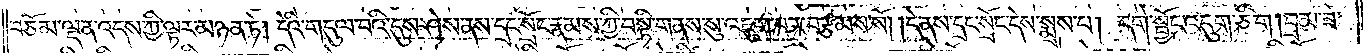བཅོམ་ལྡན་འདས་ཀྱི་ལྟར་མཉན་ཏེ། དེའི་གདུལ་བའི་དུས་ཤེས་ནས་དྲང་སྲོང་རྣམས་ཀྱི་བསྟི་གནས་སུ་འཇུག་པར་བརྩམས་སོ། །དེ་ནས་དྲང་སྲོང་དེས་སྨྲས་པ། དགེ་སྦྱོང་འདུག་ཅིག །བྲམ་ཟེ་
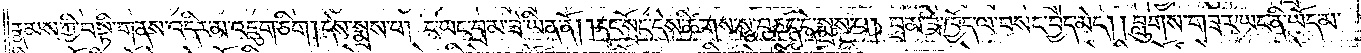རྣམས་ཀྱི་བསྟི་གནས་འདིར་མ་འཇུག་ཅིག །དེས་སྨྲས་པ། ང་ཡང་བྲམ་ཟེ་ཡིན་ནོ། །དྲང་སྲོང་དེས་ཚིགས་སུ་བཅད་དེ་སྨྲས་པ། བྲམ་ཟེ་ཁྱོད་ལ་བསང་བྱེད་མེད། བླུགས་གཟར་ཡང་ནི་ཡོད་མ་
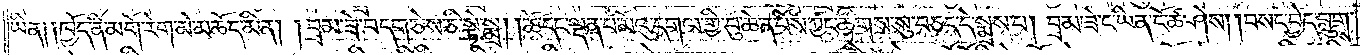ཡིན ༑  ༑ཁྱོད་ནི་མགོ་རེག་མེ་མཆོད་མིན། །བྲམ་ཟེ་བདག་ཅེས་ཅི་སྟེ་སྨྲ། །ཚེ་དང་ལྡན་པ་མོའུ་དགལ་གྱི་བུ་ཆེན་པོས་ཀྱང་ཚིགས་སུ་བཅད་དེ་སྨྲས་པ། བྲམ་ཟེ་ང་ཡིན་ངོ་ཚ་ཤེས། །བསང་བྱེད་བླུགས་
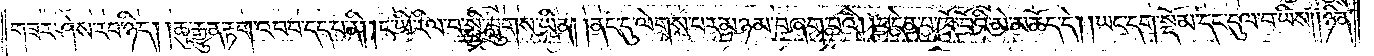གཟར་ཤེས་རབ་ཉིད། །ཆུ་རྒྱུན་རྟག་འབབ་དད་པ་ནི། །ང་ཡི་རིལ་པ་སྤྱི་བླུགས་ཡིན། །ནང་དུ་ལེགས་པར་མཉམ་བཞག་པའི། །བདེན་པ་ཁོ་བོའི་མེ་མཆོད་དེ། །ཡང་དག་སྡོམ་དང་དུལ་བ་ཡིས། །ཉིན་
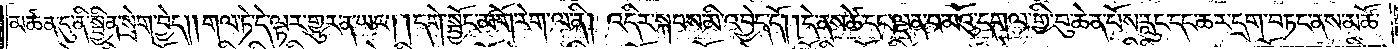མཚན་དུ་ནི་སྦྱིན་སྲེག་བྱེད། །གལ་ཏེ་དེ་ལྟར་གྱུར་ན་ཡང༌། །དགེ་སྦྱོང་མགོ་རེག་ལ་ནི། འདིར་སྐབས་མི་འབྱེད་དོ། །དེ་ནས་ཚེ་དང་ལྡན་པ་མོའུ་དགལ་གྱི་བུ་ཆེན་པོས་རླུང་དང་ཆར་དྲག་བཏང་ནས་མཚོ་
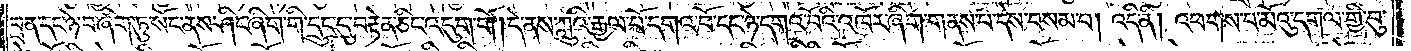བྲན་དང་ཉེ་བ་ཞིག་ཏུ་སོང་ནས་ཤིང་ཞིག་གི་དྲུང་དུ་བརྟེན་ཅིང་འདུག་གོ །དེ་ནས་ཀླུའི་རྒྱལ་པོ་དགའ་བོ་དང་ཉེ་དགའ་བོའི་འཁོར་ཞིག་གནས་པ་དེས་བསམ་པ། འདི་ནི། འཕགས་པ་མོའུ་དགལ་གྱི་བུ་
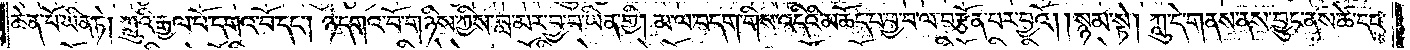ཆེན་པོ་ཡིན་ཏེ། ཀླུའི་རྒྱལ་པོ་དགའ་བོ་དང༌། ཉེ་དགའ་བོ་གཉིས་ཀྱིས་བླ་མར་བྱ་བ་ཡིན་གྱི། མ་ལ་བདག་གིས་འདིའི་མཆོད་པ་བྱ་བ་ལ་བརྩོན་པར་བྱའོ། །སྙམ་སྟེ། ཀླུ་དེ་གནས་ནས་བྱུང་ནས་ཚེ་དང་
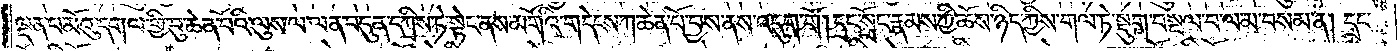ལྡན་པ་མོའུ་དགལ་གྱི་བུ་ཆེན་པོའི་ལུས་ལ་ལན་བདུན་དཀྲིས་ཏེ་སྟེང་ནས་མགོའི་གདེངས་ཀ་ཆེན་པོ་བྱས་ནས་འདུག་གོ །དྲང་སྲོང་རྣམས་ཀྱི་ཆོས་ཉིད་ཀྱིས་གལ་ཏེ་སྡུག་བསྔལ་བ་ལམ་བསམ་ན། དྲང་
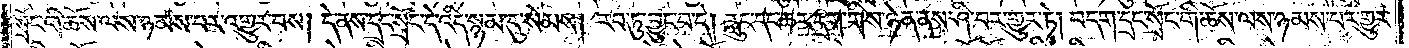སྲོང་གི་ཆོས་ལས་ཉམས་པར་འགྱུར་བས། དེ་ནས་དྲང་སྲོང་དེ་འདི་སྙམ་དུ་སེམས། རབ་ཏུ་བྱུང་བ་དེ། རླུང་དང་ཆར་དྲག་གིས་ཉེན་ནས་ཤི་བར་གྱུར་ཏེ། བདག་དྲང་སྲོང་གི་ཆོས་ལས་ཉམས་པར་གྱུར་
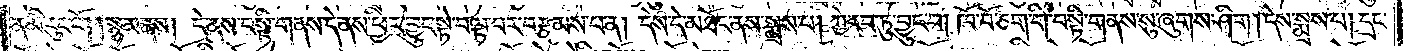ན་མི་རུང་ངོ༌། །སྙམ་ནས། དེ་ནས་བསྟི་གནས་དེ་ནས་ཕྱིར་བྱུང་སྟེ་བལྟ་བར་བརྩམས་པ་ན། དེས་དེ་མཐོང་ནས་སྨྲས་པ། ཀྱེ་རབ་ཏུ་བྱུང་བ། ཁོ་བོ་ཅག་གི་བསྟི་གནས་སུ་ཞུགས་ཤིག །དེས་སྨྲས་པ། དྲང་
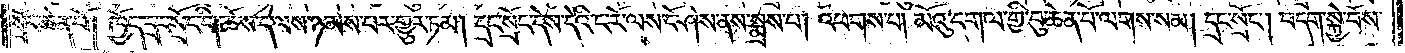སྲོང་ཆེན་པོ། ཁྱོད་དྲང་སྲོང་གི་ཆོས་དེ་ལས་ཉམས་པར་གྱུར་ཏམ། དྲང་སྲོང་དེས་དེའི་ང་རོ་ལས་ངོ་ཤེས་ནས་སྨྲས་པ། འཕགས་པ། མོའུ་དགལ་གྱི་བུ་ཆེན་པོ་ལགས་སམ། དྲང་སྲོང༌། བདག་སྐྱེ་བོས་
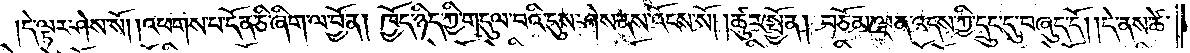།དེ་ལྟར་ཤེས་སོ། །འཕགས་པ་དོན་ཅི་ཞིག་ལ་བྱོན། ཁྱོད་ཉིད་ཀྱི་གདུལ་བའི་དུས་ཤེས་ནས་འོངས་སོ། །ཚུར་སྤྱོན། བཅོམ་ལྡན་འདས་ཀྱི་དྲུང་དུ་བཞུད་དོ། །དེ་ནས་ཚེ་
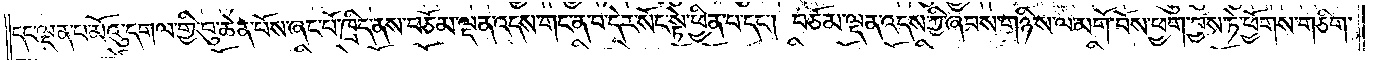དང་ལྡན་པ་མོའུ་དགལ་གྱི་བུ་ཆེན་པོས་ཞང་པོ་ཁྲིད་ནས་བཅོམ་ལྡན་འདས་གང་ན་བ་དེར་སོང་སྟེ་ཕྱིན་པ་དང༌། བཅོམ་ལྡན་འདས་ཀྱི་ཞབས་གཉིས་ལ་མགོ་བོས་ཕྱག་བྱས་ཏེ་ཕྱོགས་གཅིག་
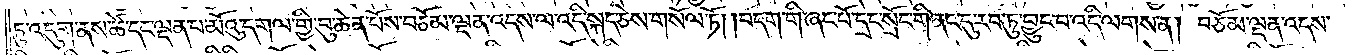ཏུ་འདུག་ནས་ཚེ་དང་ལྡན་པ་མོའུ་དགལ་གྱི་བུ་ཆེན་པོས་བཅོམ་ལྡན་འདས་ལ་འདི་སྐད་ཅེས་གསོལ་ཏོ། །བདག་གི་ཞང་པོ་དྲང་སྲོང་གི་ནང་དུ་རབ་ཏུ་བྱུང་བ་འདི་ལགས་ན། བཅོམ་ལྡན་འདས་
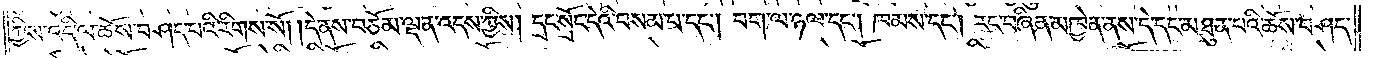ཀྱིས་འདི་ལ་ཆོས་བཤད་པའི་རིགས་སོ། །དེ་ནས་བཅོམ་ལྡན་འདས་ཀྱིས། དྲང་སྲོང་དེའི་བསམ་པ་དང༌། བག་ལ་ཉལ་དང༌། ཁམས་དང༌། རང་བཞིན་མཁྱེན་ནས་དེ་དང་མཐུན་པའི་ཆོས་བཤད་
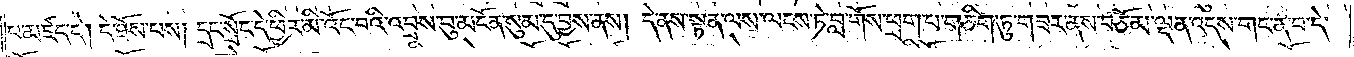པ་མཛད་དེ། དེ་ཐོས་པས། དྲང་སྲོང་དེ་ཕྱིར་མི་འོང་བའི་འབྲས་བུ་མངོན་སུམ་དུ་བྱས་ནས། དེ་ནས་སྟན་ལས་ལངས་ཏེ་བླ་གོས་ཕྲག་པ་གཅིག་ཏུ་གཟར་ནས་བཅོམ་ལྡན་འདས་གང་ན་བ་དེ་
